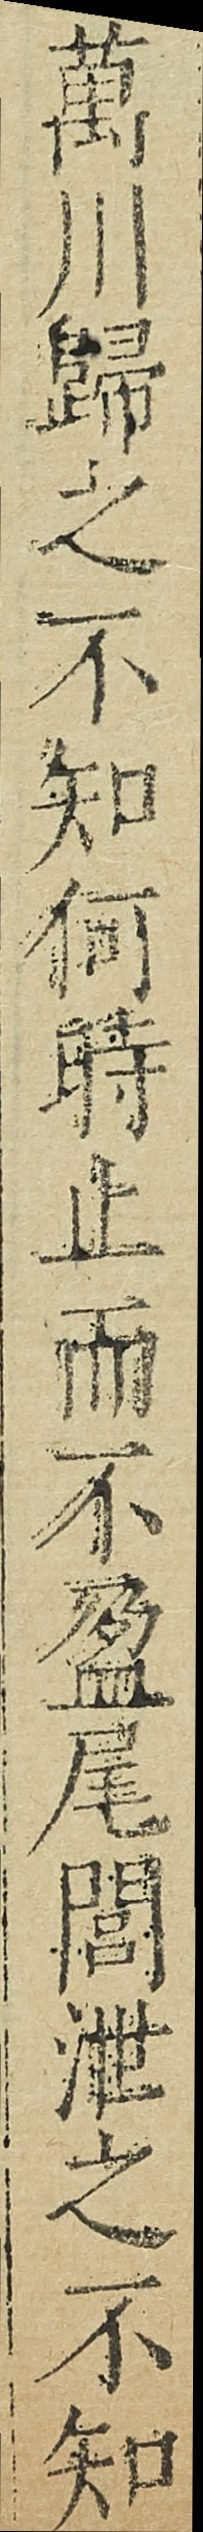萬川歸之不知何時止而不盈尾閭泄之不知
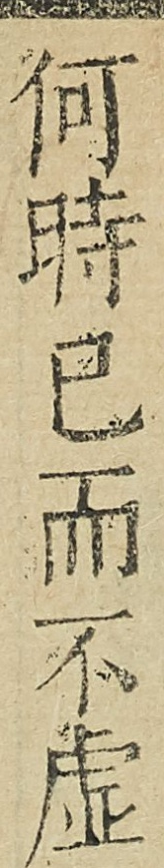何時已而不虛
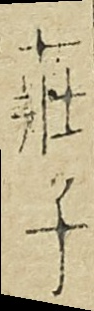莊子
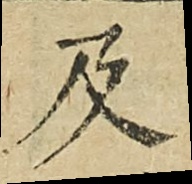及
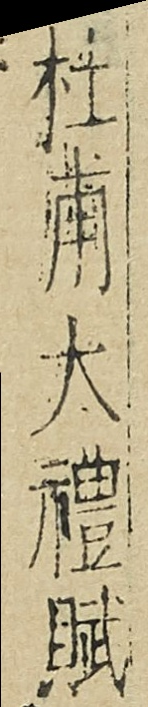杜甫大禮賦
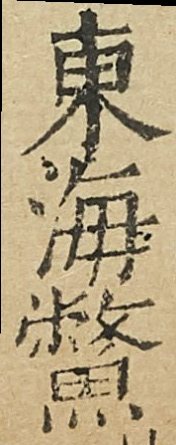東海鱉
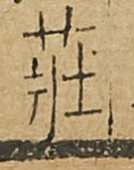莊
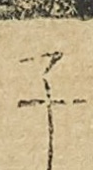子
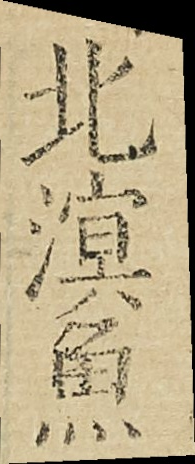北溟魚
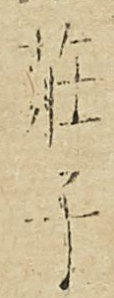莊子
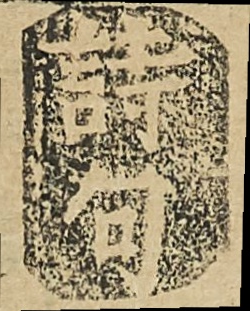詩句
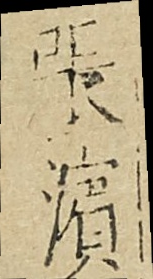張濵
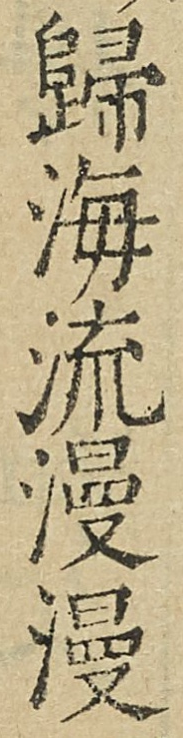歸海流漫漫
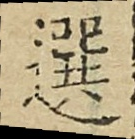選
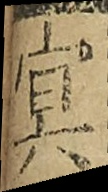㝠
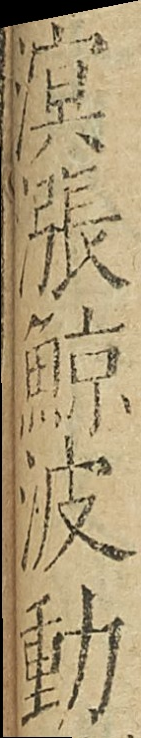溟漲鯨波動
